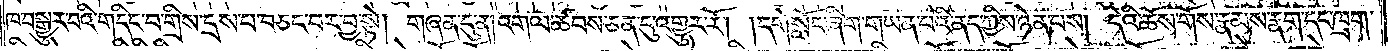ཁ་བསྒྱུར་བའི་གདིང་བ་གྲིས་དྲས་པ་བཅང་བར་བྱ་སྟེ། གཞན་དུ་ན། འགལ་ཚབས་ཅན་དུ་འགྱུར་རོ། །དགེ་སློང་ཞིག་གཡན་པའི་ནད་ཀྱིས་ཉེན་པས། དེའི་ཆོས་གོས་རྣམས་རྣག་དང་ཁྲག་
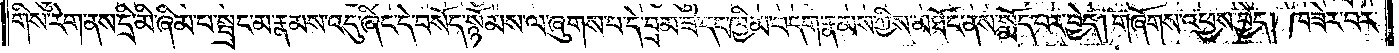གིས་རེག་ནས་དྲི་མི་ཞིམ་པ་སྦྲང་མ་རྣམས་འདུ་ཞིང་དེ་བསོད་སྙོམས་ལ་ཞུགས་པ་དེ་བྲམ་ཟེ་དང་ཁྱིམ་བདག་རྣམས་ཀྱིས་མཐོང་ནས་སྨོད་པར་བྱེད། གཞོགས་འཕྱས་བྱེད། ཁ་ཟེར་བར་
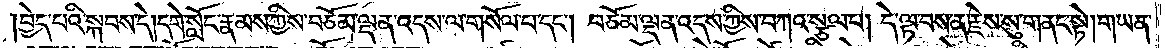བྱེད་པའི་སྐབས་དེ།དགེ་སློང་རྣམས་ཀྱིས་བཅོམ་ལྡན་འདས་ལ་གསོལ་པ་དང༌། བཅོམ་ལྡན་འདས་ཀྱིས་བཀའ་སྩལ་པ། དེ་ལྟ་བས་ན་རྗེས་སུ་གནང་སྟེ། གཡན་
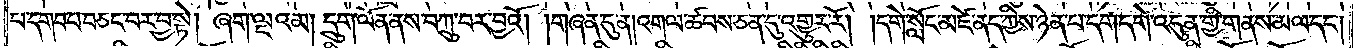པ་དགབ་པ་བཅང་བར་བྱ་སྟེ། ཞག་ལྔའམ། དྲུག་ལོན་ནས་བཀྲུ་བར་བྱའོ། །གཞན་དུ་ན། འགལ་ཚབས་ཅན་དུ་འགྱུར་རོ། །དགེ་སློང་མཛེ་ནད་ཀྱིས་ཉེན་པ་དག་དགེ་འདུན་གྱི་གནས་མལ་དང༌།
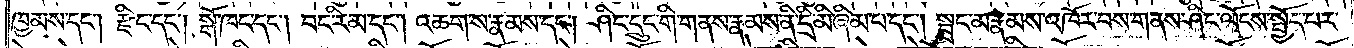ཁྱམས་དང༌། རྫིང་དང༌། སྒོ་ཁང་དང༌། བང་རིམ་དང༌། འཆག་ས་རྣམས་དང༌། ཤིང་དྲུང་གི་གནས་རྣམས་ནི་དྲི་མི་ཞིམ་པ་དང༌། སྦྲང་མ་རྣམས་འཁོར་བས་གནས་ཤིང་ལོངས་སྤྱོད་པར་
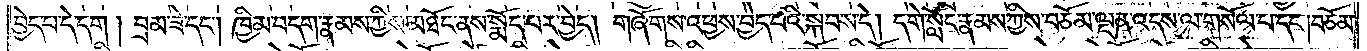བྱེད་པ་དེ་དག །བྲམ་ཟེ་དང༌། ཁྱིམ་བདག་རྣམས་ཀྱིས་མཐོང་ནས་སྨོད་པར་བྱེད། གཞོགས་འཕྱས་བྱེད་པའི་སྐབས་དེ། དགེ་སློང་རྣམས་ཀྱིས་བཅོམ་ལྡན་འདས་ལ་གསོལ་པ་དང༌། བཅོམ་
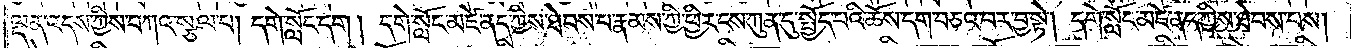ལྡན་འདས་ཀྱིས་བཀའ་སྩལ་པ། དགེ་སློང་དག །དགེ་སློང་མཛེ་ནད་ཀྱིས་ཐེབས་པ་རྣམས་ཀྱི་ཕྱིར་ངས་ཀུན་དུ་སྤྱོད་པའི་ཆོས་དག་བཅའ་བར་བྱ་སྟེ། དགེ་སློང་མཛེ་ནད་ཀྱིས་ཐེབས་པས།
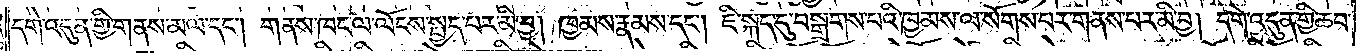དགེ་འདུན་གྱི་གནས་མལ་དང༌། གནས་ཁང་ལ་ལོངས་སྤྱད་པར་མི་བྱ། ཁྱམས་རྣམས་དང༌། ཇི་སྐད་དུ་བསྒྲགས་པའི་ཁྱམས་ལ་སོགས་པར་གནས་པར་མི་བྱ། དགེ་འདུན་གྱི་ཆབ་
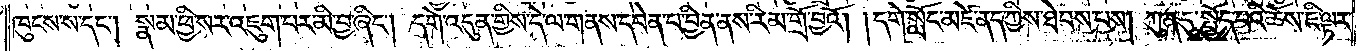ཁུངས་ས་དང༌། སྣམ་ཕྱི་སར་འཇུག་པར་མི་བྱ་ཞིང༌། དགེ་འདུན་གྱིས་དེ་ལ་གནས་དབེན་པ་བྱིན་ནས་རིམ་གྲོ་བྱའོ། །དགེ་སློང་མཛེ་ནད་ཀྱིས་ཐེབས་པས། ཀུན་དུ་སྤྱོད་པའི་ཆོས་ཇི་ལྟར་
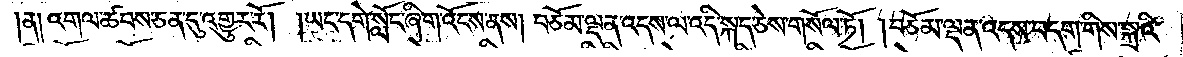།ན། འགལ་ཚབས་ཅན་དུ་འགྱུར་རོ། །ཡང་དགེ་སློང་ཞིག་འོངས་ནས། བཅོམ་ལྡན་འདས་ལ་འདི་སྐད་ཅེས་གསོལ་ཏོ། །བཅོམ་ལྡན་འདས་བདག་གིས་སྐྲའི་
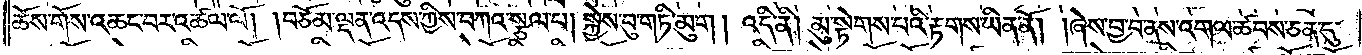ཆོས་གོས་འཆང་བར་འཚལ་ལོ། །བཅོམ་ལྡན་འདས་ཀྱིས་བཀའ་སྩལ་པ། སྐྱེས་བུ་གཏི་མུག །འདི་ནི། མུ་སྟེགས་པའི་རྟགས་ཡིན་ནོ། །ཞེས་བྱ་བ་ནས་འགལ་ཚབས་ཅན་དུ་
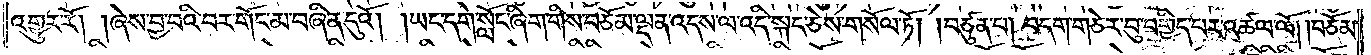འགྱུར་རོ། །ཞེས་བྱ་བའི་བར་གོང་མ་བཞིན་དུའོ། །ཡང་དགེ་སློང་ཞིག་གིས་བཅོམ་ལྡན་འདས་ལ་འདི་སྐད་ཅེས་གསོལ་ཏོ། །བཙུན་པ། བདག་གཅེར་བུ་བགྱིད་པར་འཚལ་ལོ། །བཅོམ་
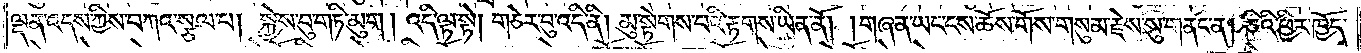ལྡན་འདས་ཀྱིས་བཀའ་སྩལ་པ། སྐྱེས་བུ་གཏི་མུག །འདི་ལྟ་སྟེ། གཅེར་བུ་འདི་ནི། མུ་སྟེགས་པའི་རྟགས་ཡིན་ནོ། །གཞན་ཡང་ངས་ཆོས་གོས་གསུམ་རྗེས་སུ་གནང་ན། ཅིའི་ཕྱིར་ཁྱོད་
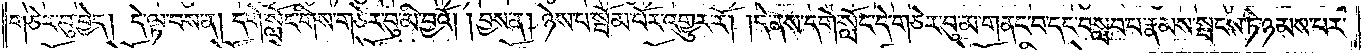གཅེར་བུ་བྱེད། དེ་ལྟ་བས་ན། དགེ་སློང་གིས་གཅེར་བུ་མི་བྱའོ། །བྱས་ན། ཉེས་པ་སྦོམ་པོར་འགྱུར་རོ། །དེ་ནས་དགེ་སློང་དེ་གཅེར་བུ་མ་གནང་བ་དང་བསླབ་པ་རྣམས་སྤངས་ཏེ་ཉམས་པར་
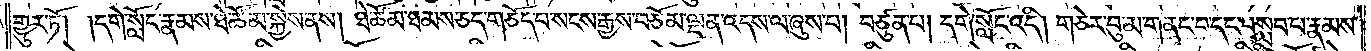གྱུར་ཏོ། །དགེ་སློང་རྣམས་ཐེ་ཚོམ་སྐྱེས་ནས། ཐེ་ཚོམ་ཐམས་ཅད་གཅོད་པ་སངས་རྒྱས་བཅོམ་ལྡན་འདས་ལ་ཞུས་པ། བཙུན་པ། དགེ་སློང་འདི། གཅེར་བུ་མ་གནང་བ་དང་བསླབ་པ་རྣམས་
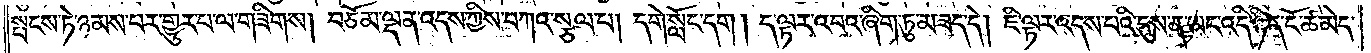སྤངས་ཏེ་ཉམས་པར་གྱུར་པ་ལ་གཟིགས། བཅོམ་ལྡན་འདས་ཀྱིས་བཀའ་སྩལ་པ། དགེ་སློང་དག །ད་ལྟར་འབའ་ཞིག་ཏུ་མ་ཟད་དེ། ཇི་ལྟར་འདས་པའི་དུས་ན་ཡང་འདི་ཉིད་ངོ་ཚ་མེད་
